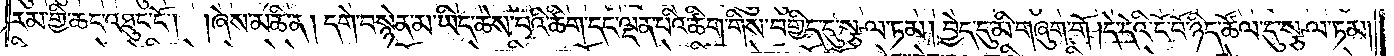རམ་གྱི་ཆང་འཐུང་ངོ༌། །ཞེས་མཆི་ན། དགེ་བསྙེན་མ་ཡིད་ཆེས་པའི་ཚིག་དང་ལྡན་པའི་ཚིག་གིས་བགྱིད་དུ་སྩལ་ཏམ། བྱེད་དུ་མི་གཞུག་གོ །དེ་དེའི་ངོ་བོ་ཉིད་ཚོལ་དུ་སྩལ་ཏམ།
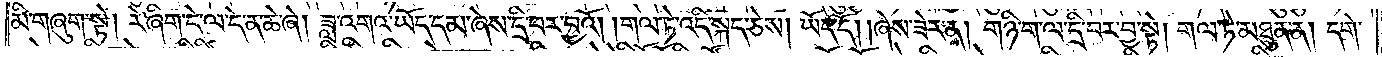མི་གཞུག་སྟེ། རེ་ཞིག་དེ་ལ་དེ་ན་ཆེ་ཞེ། ཟླ་འགའ་ཡོད་དམ་ཞེས་དྲི་བར་བྱའོ། །གལ་ཏེ་འདི་སྐད་ཅེས། ཡོད་དོ། །ཞེས་ཟེར་ན། གཉི་ག་ལ་དྲི་བར་བྱ་སྟེ། གལ་ཏེ་མཐུན་ན། དགེ་
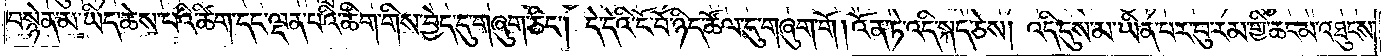བསྙེན་མ་ཡིད་ཆེས་པའི་ཚིག་དང་ལྡན་པའི་ཚིག་གིས་བྱེད་དུ་གཞུག་ཅིང༌། དེ་དེའི་ངོ་བོ་ཉིད་ཚོལ་དུ་གཞུག་གོ །འོན་ཏེ་འདི་སྐད་ཅེས། འདི་དུས་མ་ཡིན་པར་བུ་རམ་གྱི་ཆང་མ་འཐུངས་
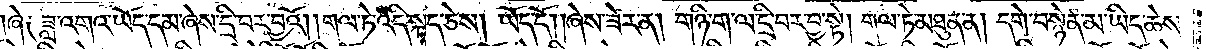།ཞེ༑ ཟླ་འགའ་ཡོད་དམ་ཞེས་དྲི་བར་བྱའོ། །གལ་ཏེ་འདི་སྐད་ཅེས། ཡོད་དོ། །ཞེས་ཟེར་ན། གཉི་ག་ལ་དྲི་བར་བྱ་སྟེ། གལ་ཏེ་མཐུན་ན། དགེ་བསྙེན་མ་ཡིད་ཆེས་
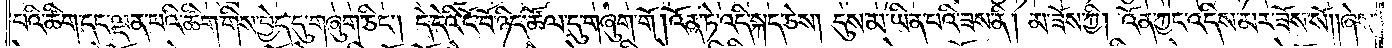པའི་ཚིག་དང་ལྡན་པའི་ཚིག་གིས་བྱེད་དུ་གཞུག་ཅིང༌། དེ་དེའི་ངོ་བོ་ཉིད་ཚོལ་དུ་གཞུག་གོ །འོན་ཏེ་འདི་སྐད་ཅེས། དུས་མ་ཡིན་པའི་ཟས་ནི། མ་ཟོས་ཀྱི། འོན་ཀྱང་འདིས་མར་ཟོས་སོ། །ཞེས་
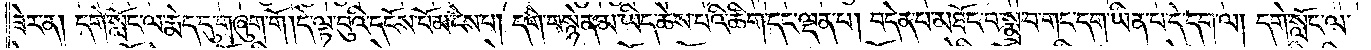ཟེར་ན། དགེ་སློང་ལ་རྨེད་དུ་གཞུག་གོ །དེ་ལྟ་བུའི་དངོས་པོ་མ་ངེས་པ། དགེ་བསྙེན་མ་ཡིད་ཆེས་པའི་ཚིག་དང་ལྡན་པ། བདེན་པ་མཐོང་བ་སྨྲ་བ་གང་དག་ཡིན་པ་དེ་དག་ལ། དགེ་སློང་ལ་
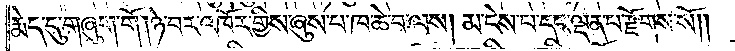རྨེད་དུ་གཞུག་གོ །ཉེ་བར་འཁོར་གྱིས་ཞུས་པ་ཁ་ཆེ་བ་ལས། མ་ངེས་པ་དང་ལྡན་པ་རྫོགས་སོ༎
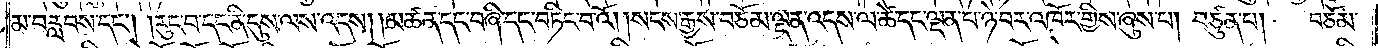མ་བརླབས་དང༌། །རུང་བ་དང་ནི་དུས་ལས་འདས། །མཚན་དང་བཞི་དང་བཏིང་བའོ།    །སངས་རྒྱས་བཅོམ་ལྡན་འདས་ལ་ཚེ་དང་ལྡན་པ་ཉེ་བར་འཁོར་གྱིས་ཞུས་པ། བཙུན་པ། བཅོམ་
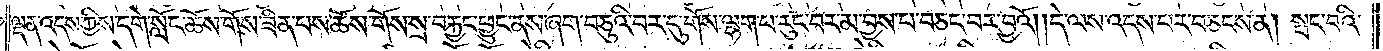ལྡན་འདས་ཀྱིས་དགེ་སློང་ཆོས་གོས་ཟིན་པས་ཆོས་གོས་སྲ་བརྐྱང་ཕྱུང་ནས་ཞག་བཅུའི་བར་དུ་གོས་ལྷག་པ་རུང་བར་མ་བྱས་པ་བཅང་བར་བྱའོ། །དེ་ལས་འདས་པར་བཅངས་ན། སྤང་བའི་
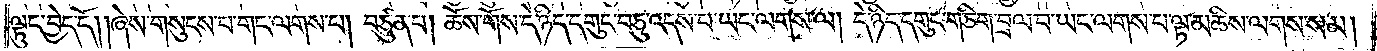ལྟུང་བྱེད་དོ། །ཞེས་གསུངས་པ་གང་ལགས་པ། བཙུན་པ། ཆོས་གོས་དེ་ཉིད་དགུང་བཅུ་འདས་པ་ཡང་ལགས་ལ། དེ་ཉིད་དགུང་གཅིག་བྲལ་བ་ཡང་ལགས་པ་ལྟ་མཆིས་ལགས་སམ།
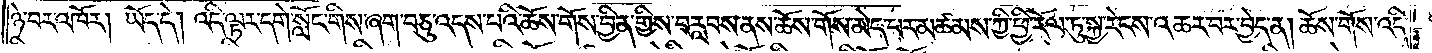ཉེ་བར་འཁོར། ཡོད་དེ། འདི་ལྟར་དགེ་སློང་གིས་ཞག་བཅུ་འདས་པའི་ཆོས་གོས་བྱིན་གྱིས་བརླབས་ནས་ཆོས་གོས་མེད་པར་མཚམས་ཀྱི་ཕྱི་རོལ་ཏུ་སྐྱ་རེངས་འཆར་བར་བྱེད་ན། ཆོས་གོས་འདི་
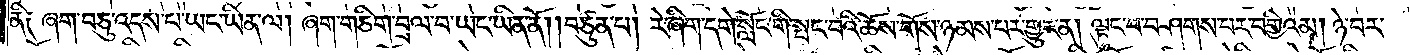ནི༑ ཞག་བཅུ་འདས་པ་ཡང་ཡིན་ལ། ཞག་གཅིག་བྲལ་བ་ཡང་ཡིན་ནོ། །བཙུན་པ། རེ་ཞིག་དགེ་སློང་གི་སྤང་བའི་ཆོས་གོས་ཉམས་པར་གྱུར་ན། ལྟུང་བ་བཤགས་པར་བགྱིའམ། ཉེ་བར་
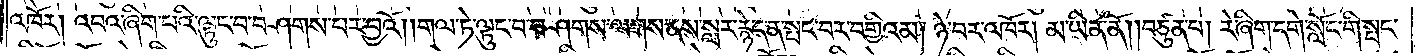འཁོར། འབའ་ཞིག་པའི་ལྟུང་བ་བཤགས་པར་བྱའོ། །གལ་ཏེ་ལྟུང་བ་བཤགས་ལགས་ནས་སླར་རྙེད་ན་སྤང་བར་བགྱིའམ། ཉེ་བར་འཁོར། མ་ཡིན་ནོ། །བཙུན་པ། རེ་ཞིག་དགེ་སློང་གི་སྤང་
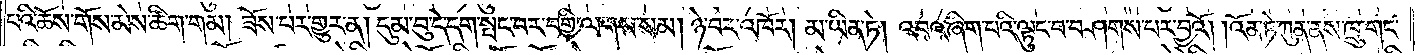པའི་ཆོས་གོས་མེས་ཚིག་གམ། ཟོས་པར་གྱུར་ན། དུམ་བུ་དེ་དག་སྤང་བར་བགྱི་ལགས་སམ། ཉེ་བར་འཁོར། མ་ཡིན་ཏེ། འབའ་ཞིག་པའི་ལྟུང་བ་བཤགས་པར་བྱའོ། །འོན་ཏེ་ཀུན་ནས་ཁྲུ་གང་
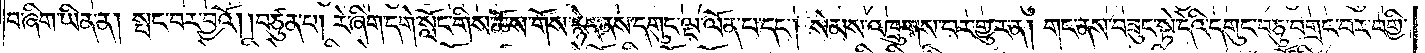བ་ཞིག་ཡིན་ན། སྤང་བར་བྱའོ། །བཙུན་པ། རེ་ཞིག་དགེ་སློང་གིས་ཆོས་གོས་རྙེད་ནས་དགུང་ལྔ་ལོན་པ་དང༌། སེམས་འཁྲུགས་པར་གྱུར་ན། གང་ནས་བཟུང་སྟེ་དེའི་དགུང་བཅུ་བགྲང་བར་བགྱི་
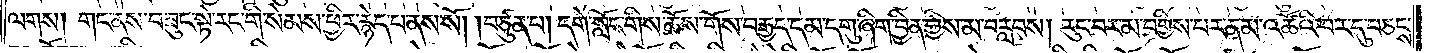ལགས། གང་ནས་བཟུང་སྟེ་རང་གི་སེམས་ཕྱིར་རྙེད་པ་ནས་སོ། །བཙུན་པ། དགེ་སློང་གིས་ཆོས་གོས་བརྒྱད་དམ་དགུ་ཞིག་བྱིན་གྱིས་མ་བརླབས། རུང་བར་མ་བགྱིས་པར་ནམ་འཚོའི་བར་དུ་བཅངས་
